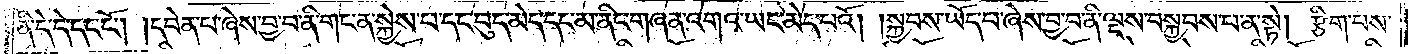ནི་དེ་དེ་དང་ངོ༌། །དབེན་པ་ཞེས་བྱ་བ་ནི་གང་ན་སྐྱེས་པ་དང་བུད་མེད་དང་མ་ནིང་གཞན་འགའ་ཡང་མེད་པའོ། །སྐྱབས་ཡོད་པ་ཞེས་བྱ་བ་ནི་ལྔས་བསྐྱབས་པ་ན་སྟེ། རྩིག་པས་
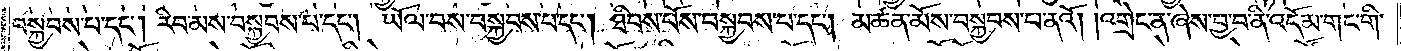བསྐྱབས་པ་དང༌། རིབ་མས་བསྐྱབས་པ་དང༌། ཡོལ་བས་བསྐྱབས་པ་དང༌། ཐིབས་པོས་བསྐྱབས་པ་དང༌། མཚན་མོས་བསྐྱབས་པ་ནའོ། །འགྲེང་ན་ཞེས་བྱ་བ་ནི་འདོམ་གང་གི་
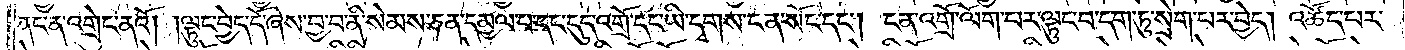ནང་ན་འགྲེང་ནའོ། །ལྟུང་བྱེད་དོ་ཞེས་བྱ་བ་ནི་སེམས་ཅན་དམྱལ་བ་དང་དུད་འགྲོ་དང་ཡི་དྭགས་ངན་སོང་དང༌། ངན་འགྲོ་ལོག་པར་ལྟུང་བ་དག་ཏུ་སྲེག་པར་བྱེད། །འཚོད་པར་
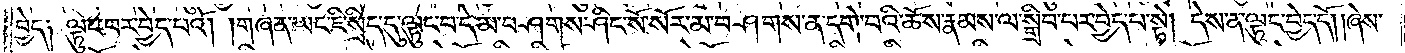བྱེད༑ ལྟུང་བར་བྱེད་པའོ། །གཞན་ཡང་ཇི་སྲིད་དུ་ལྟུང་བ་དེ་མ་བཤགས་ཤིང་སོ་སོར་མ་བཤགས་ན་དགེ་བའི་ཆོས་རྣམས་ལ་སྒྲིབ་པར་བྱེད་པ་སྟེ། དེས་ན་ལྟུང་བྱེད་དོ། །ཞེས་
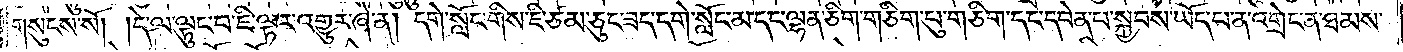གསུངས་སོ། །དེ་ལ་ལྟུང་བ་ཇི་ལྟར་འགྱུར་ཞེ་ན། དགེ་སློང་གིས་ཇི་ཙམ་ཅུང་ཟད་དགེ་སློང་མ་དང་ལྷན་ཅིག་གཅིག་པུ་གཅིག་དང་དབེན་པ་སྐྱབས་ཡོད་པ་ན་འགྲེང་ན་ཐམས་
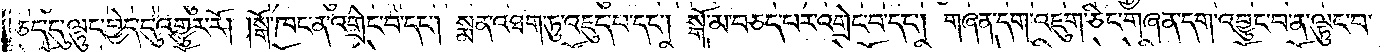ཅད་དུ་ལྟུང་བྱེད་དུ་འགྱུར་རོ། །སྒོ་ཁང་ན་འགྲེང་བ་དང༌། སྨན་འཐག་ཏུ་འཇུད་པ་དང༌། སྒོ་མ་བཅད་པར་འགྲེང་བ་དང༌། གཞན་དག་འཇུག་ཅིང་གཞན་དག་འབྱུང་བ་ན་ལྟུང་བ་
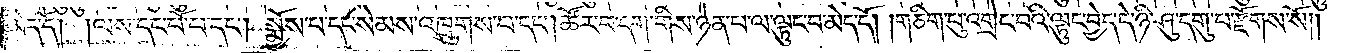མེད་དོ། །ལས་དང་པོ་པ་དང༌། སྨྱོས་པ་དང་སེམས་འཁྲུགས་པ་དང༌། ཚོར་བ་དག་གིས་ཉེན་པ་ལ་ལྟུང་བ་མེད་དོ། །གཅིག་པུ་འགྲེང་བའི་ལྟུང་བྱེད་དེ་ཉི་ཤུ་དགུ་པ་རྫོགས་སོ༎
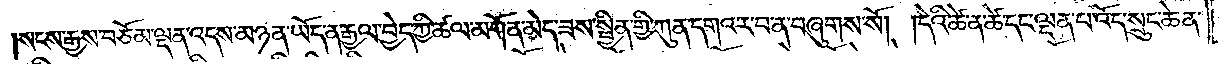སངས་རྒྱས་བཅོམ་ལྡན་འདས་མཉན་ཡོད་ན་རྒྱལ་བྱེད་ཀྱི་ཚལ་མགོན་མེད་ཟས་སྦྱིན་གྱི་ཀུན་དགའ་ར་བ་ན་བཞུགས་སོ། །དེའི་ཚེ་ན་ཚེ་དང་ལྡན་པ་འོད་སྲུང་ཆེན་
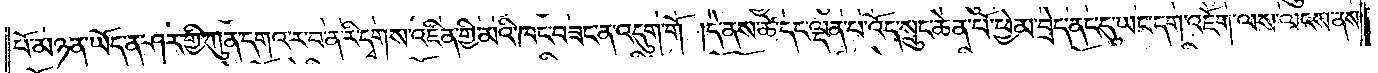པོ་མཉན་ཡོད་ན་ཤར་གྱི་ཀུན་དགའ་ར་བ་ན་རི་དྭགས་འཛིན་གྱི་མའི་ཁང་བཟང་ན་འདུག་གོ །དེ་ནས་ཚེ་དང་ལྡན་པ་འོད་སྲུང་ཆེན་པོ་ཕྱེ་མ་བྲེད་ནང་དུ་ཡང་དག་འཇོག་ལས་ལངས་ནས་
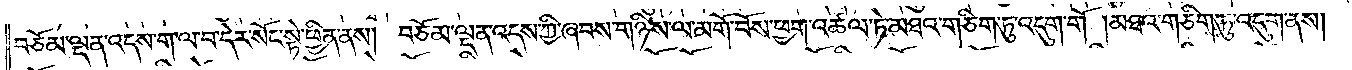བཅོམ་ལྡན་འདས་ག་ལ་བ་དེར་སོང་སྟེ་ཕྱིན་ནས། བཅོམ་ལྡན་འདས་ཀྱི་ཞབས་གཉིས་ལ་མགོ་བོས་ཕྱག་འཚལ་ཏེ་མཐའ་གཅིག་ཏུ་འདུག་གོ །མཐའ་གཅིག་ཏུ་འདུག་ནས།
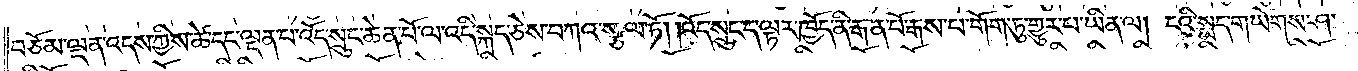བཅོམ་ལྡན་འདས་ཀྱིས་ཚེ་དང་ལྡན་པ་འོད་སྲུང་ཆེན་པོ་ལ་འདི་སྐད་ཅེས་བཀའ་སྩལ་ཏོ། །འོད་སྲུང་ད་ལྟར་ཁྱོད་ནི་རྒན་པོ་རྒས་པ་གོག་ཏུ་གྱུར་པ་ཡིན་ལ། ངའི་སྨད་གཡོགས་ཤ་
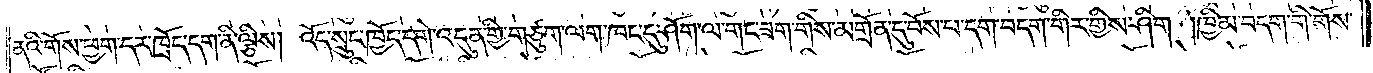ནའི་གོས་ཕྱག་དར་ཁྲོད་དག་ནི་ལྕིས། འོད་སྲུང་ཁྱོད་དགེ་འདུན་གྱི་གཙུག་ལག་ཁང་དུ་ཤོག་ལ་གང་ཟག་གིས་མགྲོན་དུ་བོས་པ་དག་བདག་གིར་གྱིས་ཤིག །ཁྱིམ་བདག་གི་གོས་
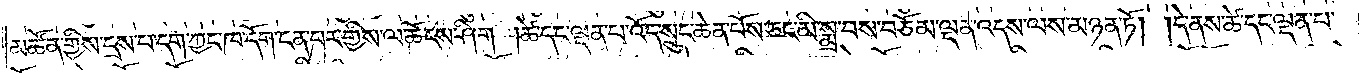མཚོན་གྱིས་དྲས་པ་དག་ཀྱང་ཁ་དོག་ངན་པར་གྱིས་ལ་ཆོངས་ཤིག །ཚེ་དང་ལྡན་པ་འོད་སྲུང་ཆེན་པོས་ཅང་མི་སྨྲ་བས་བཅོམ་ལྡན་འདས་ལས་མཉན་ཏོ། །དེ་ནས་ཚེ་དང་ལྡན་པ་
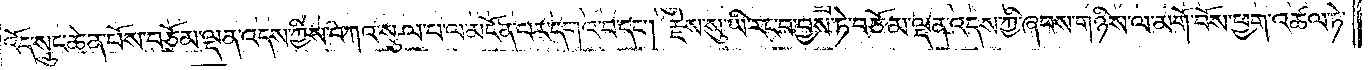འོད་སྲུང་ཆེན་པོས་བཅོམ་ལྡན་འདས་ཀྱིས་བཀའ་སྩལ་པ་ལ་མངོན་པར་དགའ་བ་དང༌། རྗེས་སུ་ཡི་རང་བ་བྱས་ཏེ་བཅོམ་ལྡན་འདས་ཀྱི་ཞབས་གཉིས་ལ་མགོ་བོས་ཕྱག་འཚལ་ཏེ་
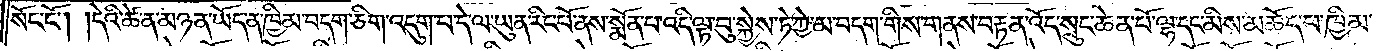སོང་ངོ༌། །དེའི་ཚེ་ན་མཉན་ཡོད་ན་ཁྱིམ་བདག་ཅིག་འདུག་པ་དེ་ལ་ཡུན་རིང་པོ་ནས་སྨོན་པ་འདི་ལྟ་བུ་སྐྱེས་ཏེ་ཀྱེ་མ་བདག་གིས་གནས་བརྟན་འོད་སྲུང་ཆེན་པོ་ལྷ་དང་མིས་མཆོད་པ་ཁྱིམ་
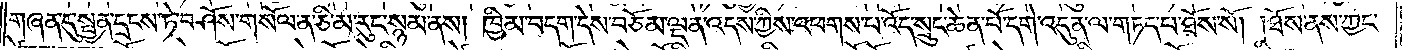གཞན་དུ་སྤྱན་དྲངས་ཏེ་བཤོས་གསོལ་ན་ཅི་མ་རུང་སྙམ་ནས། ཁྱིམ་བདག་དེས་བཅོམ་ལྡན་འདས་ཀྱིས་འཕགས་པ་འོད་སྲུང་ཆེན་པོ་དགེ་འདུན་ལ་གཏད་པ་ཐོས་སོ། །ཐོས་ནས་ཀྱང་
